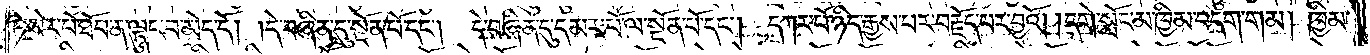ཏེ་སེར་པོ་ཐོབ་ན་ལྟུང་བ་མེད་དོ། །དེ་བཞིན་དུ་སྔོན་པོ་དང༌། དེ་བཞིན་དུ་དམར་པོ་ལ་སྔོན་པོ་དང༌། དཀར་པོ་ཉིད་རྒྱས་པར་བརྗོད་པར་བྱའོ། །དགེ་སློང་མ་ཁྱིམ་བདག་གམ། ཁྱིམ་
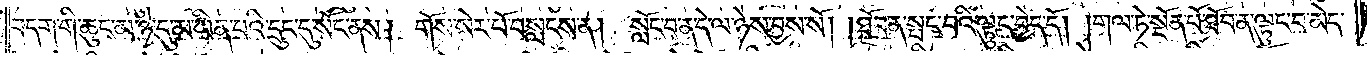བདག་གི་ཆུང་མ་ཉེ་དུ་མ་ཡིན་པའི་དྲུང་དུ་སོང་ནས། གོས་སེར་པོ་བསླངས་ན། སློང་བ་ན་དེ་ལ་ཉེས་བྱས་སོ། །ཐོབ་ན་སྤང་བའི་ལྟུང་བྱེད་དོ། །གལ་ཏེ་སྔོན་པོ་ཐོབ་ན་ལྟུང་བ་མེད་
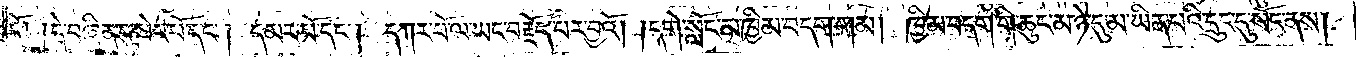དོ། །དེ་བཞིན་དུ་སེར་པོ་དང༌། དམར་པོ་དང༌། དཀར་པོ་ལ་ཡང་བརྗོད་པར་བྱའོ། །དགེ་སློང་མ་ཁྱིམ་བདག་གམ། ཁྱིམ་བདག་གི་ཆུང་མ་ཉེ་དུ་མ་ཡིན་པའི་དྲུང་དུ་སོང་ནས།
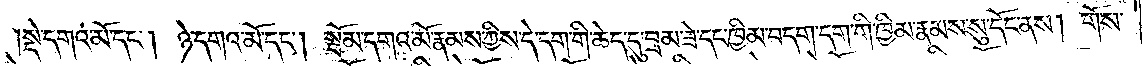སྡེ་དགའ་མོ་དང༌། ཉེ་དགའ་མོ་དང༌། སྦོམ་དགའ་མོ་རྣམས་ཀྱིས་དེ་དག་གི་ཆེད་དུ་བྲམ་ཟེ་དང་ཁྱིམ་བདག་དག་གི་ཁྱིམ་རྣམས་སུ་དོང་ནས། གོས་
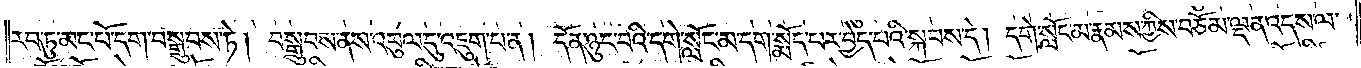རབ་ཏུ་མང་པོ་དག་བསྒྲུབས་ཏེ། བསྒྲུབས་ནས་འབུལ་དུ་འཇུག་པ་ན། དོན་ཉུང་བའི་དགེ་སློང་མ་དག་སྨོད་པར་བྱེད་པའི་སྐབས་དེ། དགེ་སློང་མ་རྣམས་ཀྱིས་བཅོམ་ལྡན་འདས་ལ་
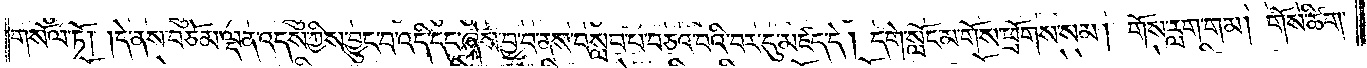གསོལ་ཏོ། །དེ་ནས་བཅོམ་ལྡན་འདས་ཀྱིས་བྱུང་བ་འདི་དང་ཞེས་བྱ་བ་ནས་བསླབ་པ་བཅའ་བའི་བར་དུ་མཛད་དེ། དགེ་སློང་མ་གོས་ཕྲོགས་སམ། གོས་རླག་གམ། གོས་ཚིག་
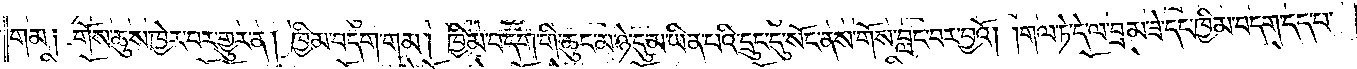གམ༑ གོས་ཆུས་ཁྱེར་བར་གྱུར་ན། ཁྱིམ་བདག་གམ། ཁྱིམ་བདག་གི་ཆུང་མ་ཉེ་དུ་མ་ཡིན་པའི་དྲུང་དུ་སོང་ནས་གོས་བླང་བར་བྱའོ། །གལ་ཏེ་དེ་ལ་བྲམ་ཟེ་དང་ཁྱིམ་བདག་དད་པ་
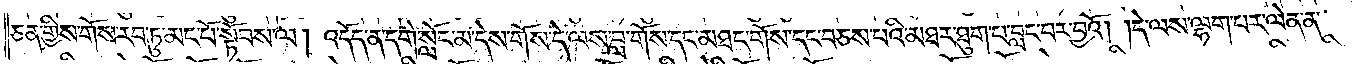ཅན་གྱིས་གོས་རབ་ཏུ་མང་པོ་སྟོབས་ལ། འདོད་ན་དགེ་སློང་མ་དེས་གོས་དེ་ལས་བླ་གོས་དང་མཐང་གོས་དང་བཅས་པའི་མཐར་ཐུག་པ་བླང་བར་བྱའོ། །དེ་ལས་ལྷག་པར་ལེན་ན་
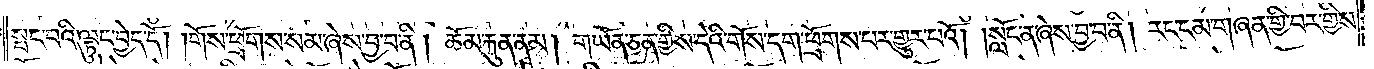སྤང་བའི་ལྟུང་བྱེད་དོ། །གོས་ཕྲོགས་སམ་ཞེས་བྱ་བ་ནི། ཆོམ་རྐུན་ནམ། གཡོན་ཅན་གྱིས་དེའི་གོས་དག་ཕྲོགས་པར་གྱུར་པའོ། །སློང་ན་ཞེས་བྱ་བ་ནི། རང་ངམ་གཞན་གྱི་བར་གྱིས་
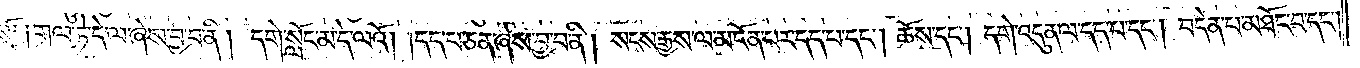སོ༑ ༑གལ་ཏེ་དེ་ལ་ཞེས་བྱ་བ་ནི། དགེ་སློང་མ་དེ་ལའོ། །དད་པ་ཅན་ཞེས་བྱ་བ་ནི། སངས་རྒྱས་ལ་མངོན་པར་དད་པ་དང༌། ཆོས་དང༌། དགེ་འདུན་ལ་དད་པ་དང༌། བདེན་པ་མཐོང་བ་དང༌།
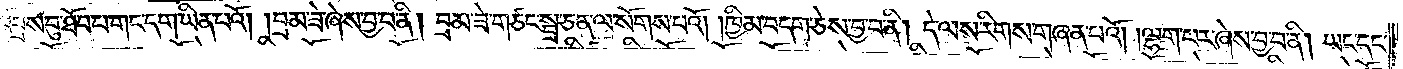འབྲས་བུ་ཐོབ་པ་གང་དག་ཡིན་པའོ། །བྲམ་ཟེ་ཞེས་བྱ་བ་ནི། བྲམ་ཟེ་གཙང་སྦྲ་ཅན་ལ་སོགས་པའོ། །ཁྱིམ་བདག་ཅེས་བྱ་བ་ནི། དེ་ལས་རིགས་གཞན་པའོ། །ལྷག་པར་ཞེས་བྱ་བ་ནི། ཡང་དང་
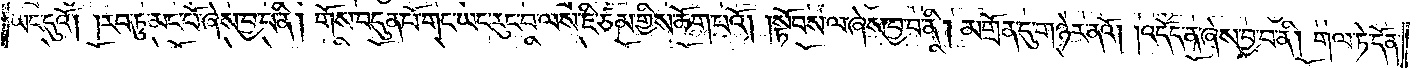ཡང་དུའོ། །རབ་ཏུ་མང་པོ་ཞེས་བྱ་བ་ནི། གོས་བདུན་པོ་གང་ཡང་རུང་བ་ལས་ཇི་ཙམ་གྱིས་ཆོག་པའོ། །སྟོབས་ལ་ཞེས་བྱ་བ་ནི། མགྲོན་དུ་གཉར་ནའོ། །འདོད་ན་ཞེས་བྱ་བ་ནི། གལ་ཏེ་དོན་
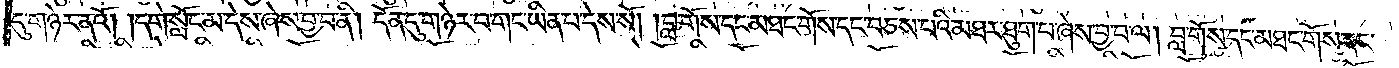དུ་གཉེར་ནའོ། །དགེ་སློང་མ་དེས་ཞེས་བྱ་བ་ནི། དོན་དུ་གཉེར་བ་གང་ཡིན་པ་དེས་སོ། །བླ་གོས་དང་མཐང་གོས་དང་བཅས་པའི་མཐར་ཐུག་པ་ཞེས་བྱ་བ་ལ། བླ་གོས་དང་མཐང་གོས་དང་
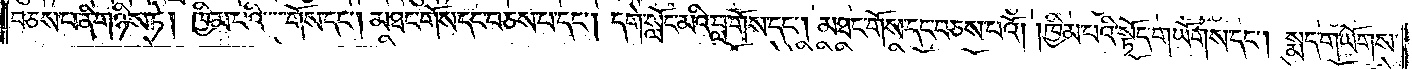བཅས་པ་ནི་གཉིས་ཏེ། ཁྱིམ་པའི་གོས་དང༌། མཐང་གོས་དང་བཅས་པ་དང༌། དགེ་སློང་མའི་བླ་གོས་དང༌། མཐང་གོས་དང་བཅས་པའོ། །ཁྱིམ་པའི་སྟོད་གཡོགས་དང༌། སྨད་གཡོགས་
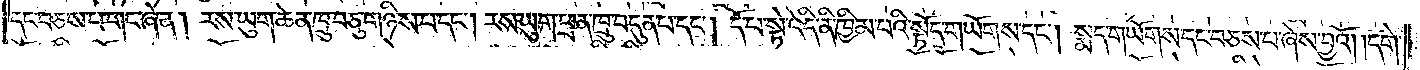དང་བཅས་པ་གང་ཞེ་ན། རས་ཡུག་ཆེན་ཁྲུ་བཅུ་གཉིས་པ་དང༌། རས་ཡུག་ཕྲན་ཁྲུ་བདུན་པ་དང༌། དོ་པ་སྟེ་འདི་ནི་ཁྱིམ་པའི་སྟོད་གཡོགས་དང༌། སྨད་གཡོགས་དང་བཅས་པ་ཞེས་བྱའོ། །དགེ་
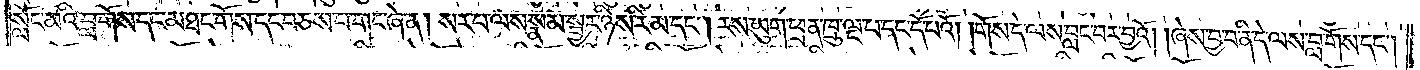སློང་མའི་བླ་གོས་དང་མཐང་གོས་དང་བཅས་པ་གང་ཞེ་ན། སར་པ་ལས་སྣམ་སྦྱར་ཉིས་རིམ་དང༌། རས་ཡུག་ཕྲན་ཁྲུ་ལྔ་པ་དང་དོ་པའོ། །གོས་དེ་ལས་བླང་བར་བྱའོ། །ཞེས་བྱ་བ་ནི་དེ་ལས་བླ་གོས་དང༌།
